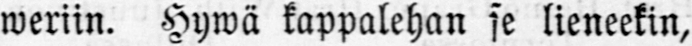weriin. Hywä kappalehan se lieneekin,
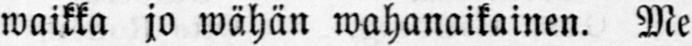waikka jo wähän wahanaikainen. Me
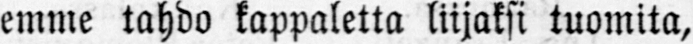emme tahdo kappaletta liijaksi tuomita,
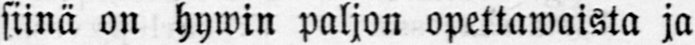siinä on hywin paljon opettawista ja
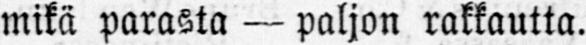mikä parasta — paljon rakkautta.
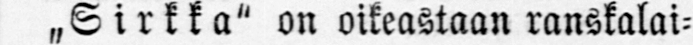„Sirkka" on oikeastaan ranskalai-
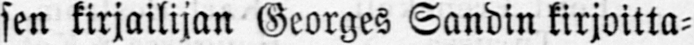sen kirjailijan Georges Sandin kirjoitta-
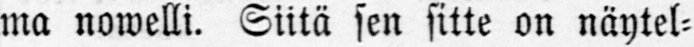ma nowelli. Siitä sen sitte on näytel-
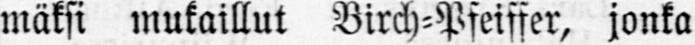mäksi mukaillut Birch-Pfeiffer, jonka
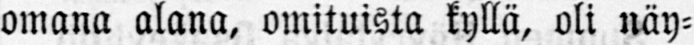omana alana, omituista kyllä, oli näy-
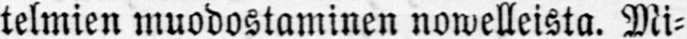telmien muodostaminen nowelleista. Mi-
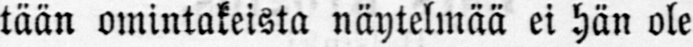tään omintakeista näytelmää ei hän ole
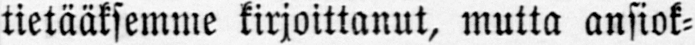tietääksemme kirjoittanut, mutta ansiok-
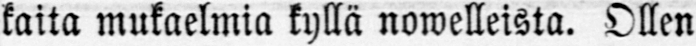kaita mukaelmia kyllä nowelleista. Ollen
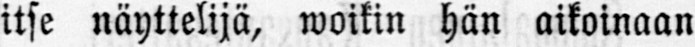itse näyttelijä, woikin hän aikoinaan
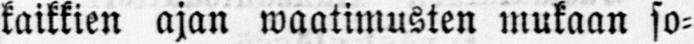kaikkien ajan wallimusten mukaan so-
